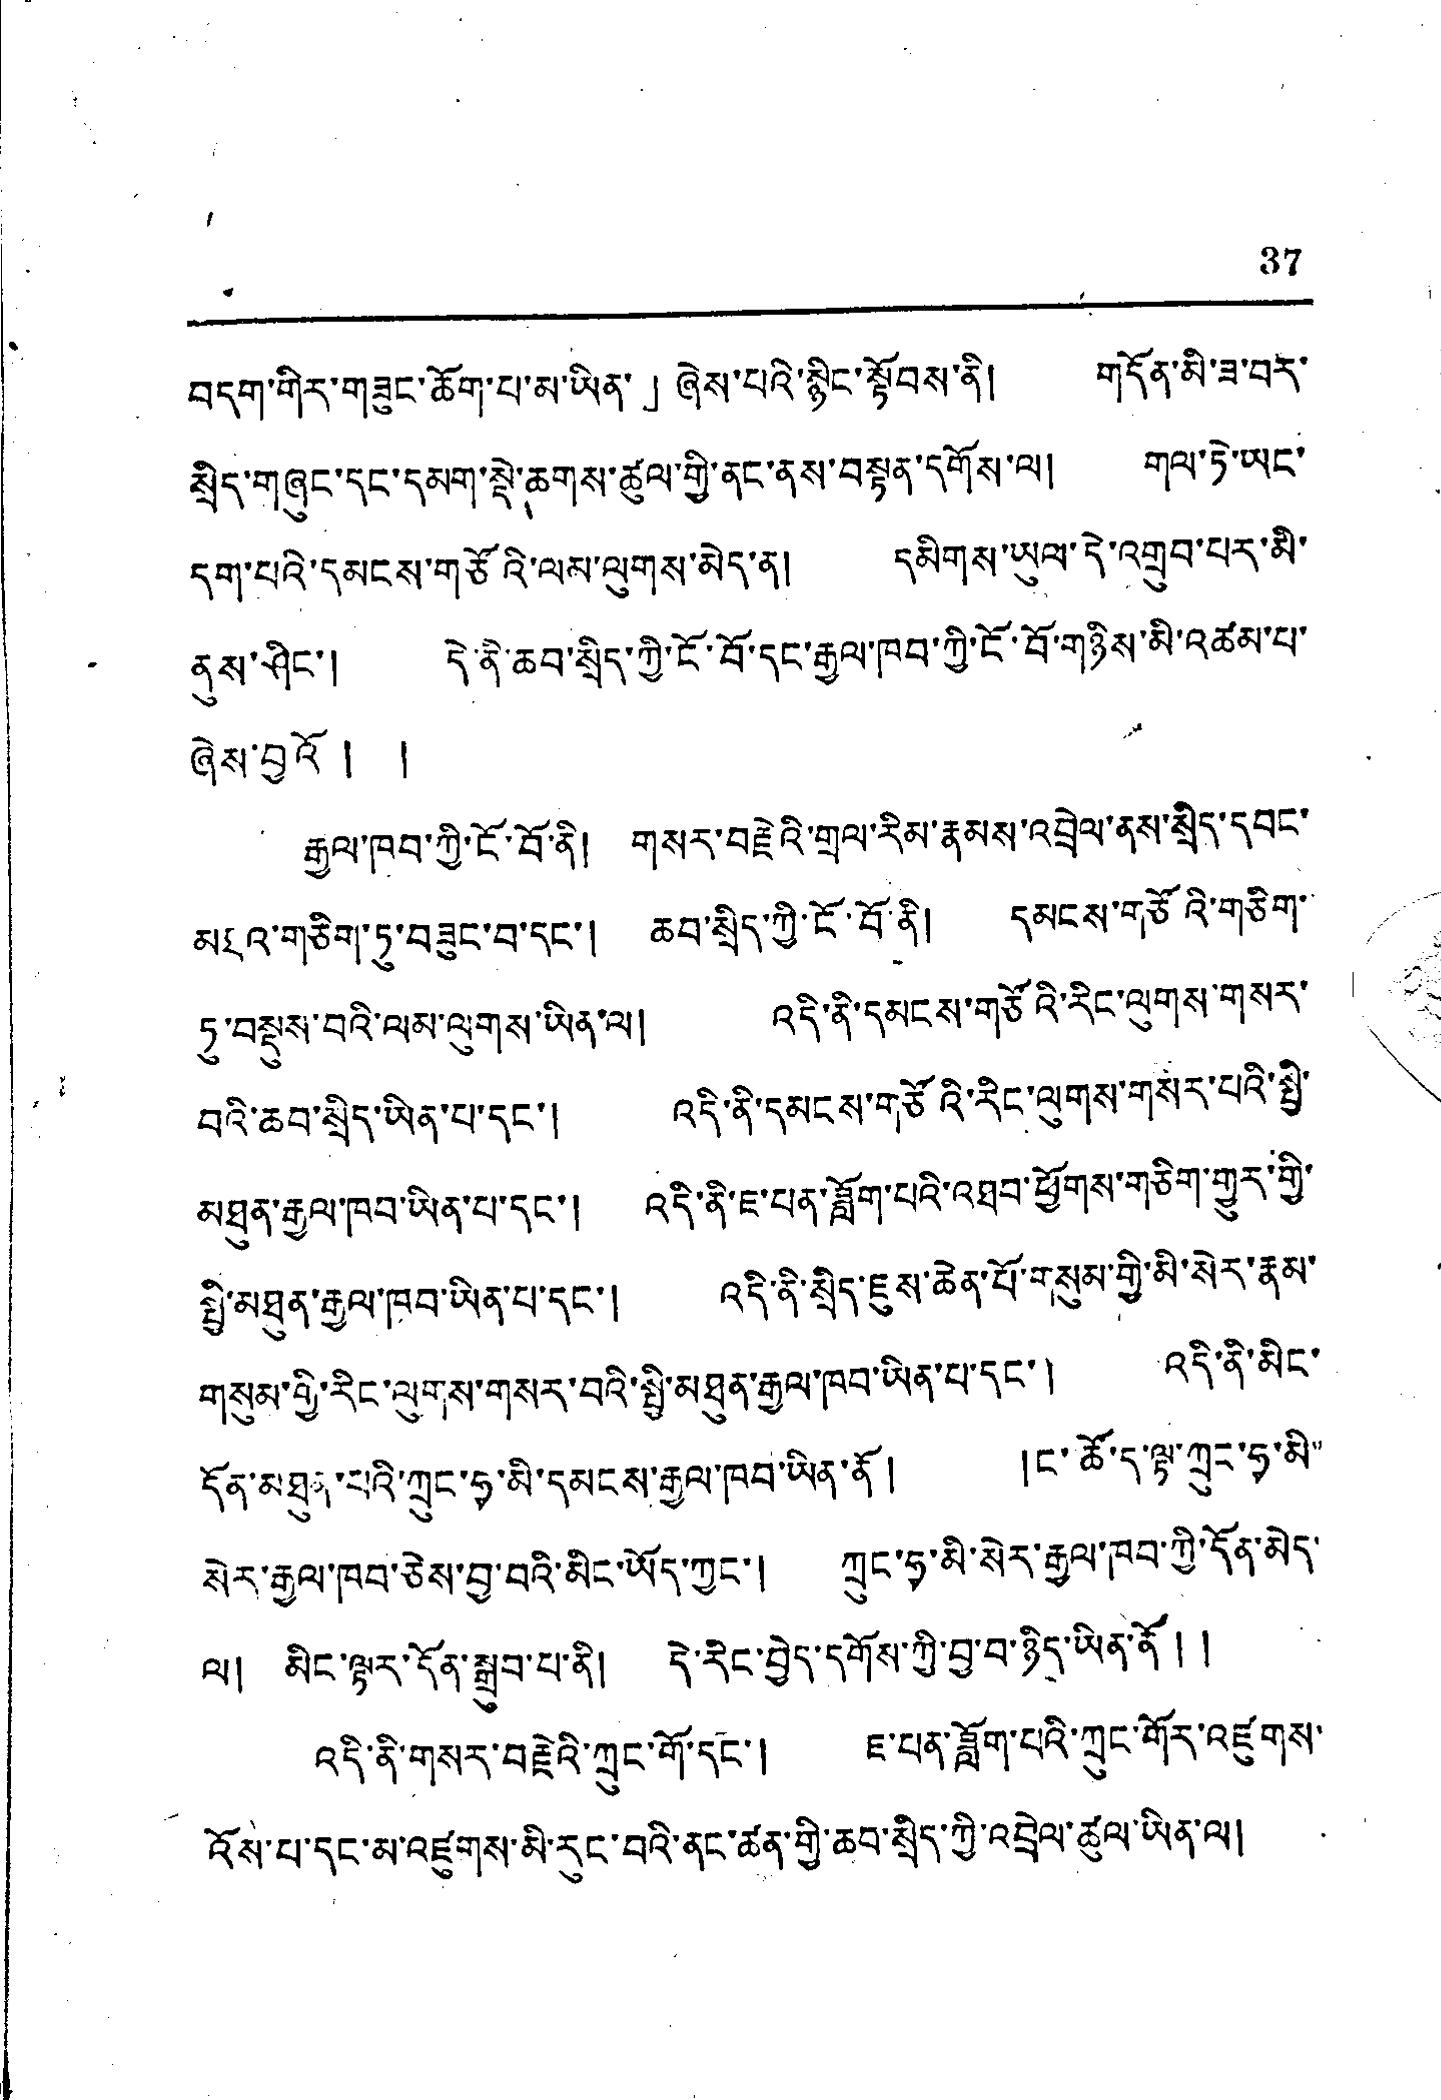37
བདག་གིར་གཟུང་ཆོག་པ་མ་ཡིན་」ཞེས་པའི་སྙིང་སྟོབས་ནི། གདོན་མི་ཟ་བར་
སྲིད་གཞུང་དང་དམག་སྡེ་ཆགས་ཚུལ་གྱི་ནང་ནས་བསྟན་དགོས་ལ། གལ་ཏེ་ཡང་
དག་པའི་དམངས་གཙོའི་ལམ་ལུགས་མེད་ན། དམིགས་ཡུལ་དེ་འགྲུབ་པར་མི་
ནུས་ཤིང་། དེ་ནི་ཆབ་སྲིད་ཀྱི་ངོ་བོ་དང་རྒྱལ་ཁབ་ཀྱི་ངོ་བོ་གཉིས་མི་འཚམ་པ་
ཞེས་བྱའོ། །
རྒྱལ་ཁབ་ཀྱི་ངོ་བོ་ནི། གསར་བརྗེའི་གྲལ་རིམ་རྣམས་འབྲེལ་ནས་སྲིད་དབང་
མཐའ་གཅིག་ཏུ་བཟུང་བ་དང་། ཆབ་སྲིད་ཀྱི་ངོ་བོ་ནི། དམངས་གཙོའི་གཅིག་
ཏུ་བསྡུས་བའི་ལམ་ལུགས་ཡིན་ལ། འདི་ནི་དམངས་གཙོའི་རིང་ལུགས་གསར་
བའི་ཆབ་སྲིད་ཡིན་པ་དང་། འདི་ནི་དམངས་གཙོའི་རིང་ལུགས་གསར་པའི་སྤྱི་
མཐུན་རྒྱལ་ཁབ་ཡིན་པ་དང་། འདི་ནི་ཇ་པན་ཟློག་པའི་འཐབ་ཕྱོགས་གཅིག་གྱུར་གྱི་
སྤྱི་མཐུན་རྒྱལ་ཁབ་ཡིན་པ་དང་། འདི་ནི་སྲིད་ཇུས་ཆེན་པོ་གསུམ་གྱི་མི་སེར་རྣམ་
གསུམ་གྱི་རིང་ལུགས་གསར་བའི་སྤྱི་མཐུན་རྒྱལ་ཁབ་ཡིན་པ་དང་། འདི་ནི་མིང་
དོན་མཐུན་པའི་ཀྲུང་ཧྭ་མི་དམངས་རྒྱལ་ཁབ་ཡིན་ནོ། །ང་ཚོ་ད་ལྟ་ཀྲུང་ཧྭ་མི་
སེར་རྒྱལ་ཁབ་ཅེས་བྱ་བའི་མིང་ཡོད་ཀྱང་། ཀྲུང་ཧྭ་མི་སེར་རྒྱལ་ཁབ་ཀྱི་དོན་མེད་
ལ། མིང་ལྟར་དོན་སྒྲུབ་པ་ནི། དེ་རིང་བྱེད་དགོས་ཀྱི་བྱ་བ་ཉིད་ཡིན་ནོ། །
འདི་ནི་གསར་བརྗེའི་ཀྲུང་གོ་དང་། ཇ་པན་ཟློག་པའི་ཀྲུང་གོར་འཛུགས་
འོས་པ་དང་མ་འཛུགས་མི་རུང་བའི་ནང་ཚན་གྱི་ཆབ་སྲིད་ཀྱི་འབྲེལ་ཚུལ་ཡིན་ལ།
